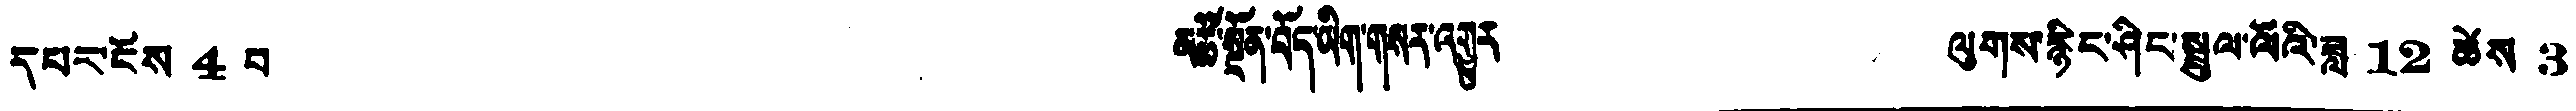དཔར་ངོས 4 པ མཆོ་སྔོན་བོད་ཡིག་གསར་འགྱུར ལུགས་རྙིང་ཤིང་སྦྲུལ་ལོའི་ཟླ 12 ཚེས 3
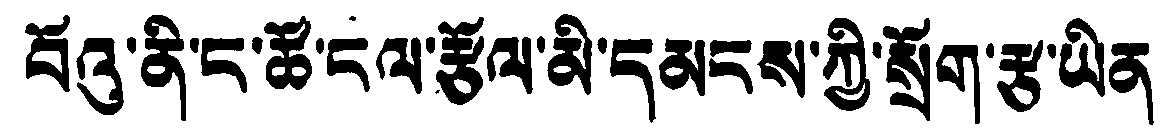བོའུ་ནི་ང་ཚོ་ངལ་རྩོལ་མི་དམངས་ཀྱི་སྲོག་རྩ་ཡིན
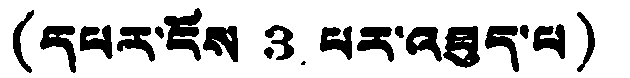(དཔར་ངོས 3 པར་འཐུད་ལ)
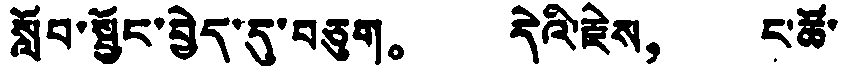སློབ་སྦྱོང་བྱེད་དུ་བཅུག。 དེའི་རྗེས， ང་ཚོ་
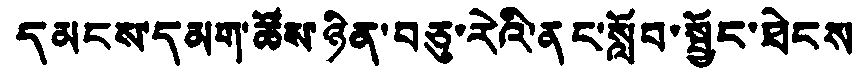དམངས་དམག་ཚོས་ཉིན་བཅུ་རེའི་ནང་སློབ་སྦྱོང་ཐེངས
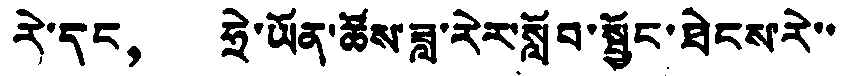རེ་དང， ཧྲེ་ཡོན་ཚོས་ཟླ་རེར་སློབ་སྦྱོང་ཐེངས་རེ་་
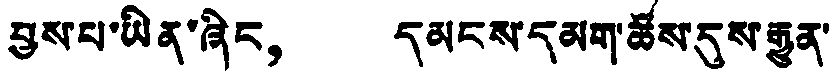བྱས་པ་ཡིན་ཞིང， དམངས་དམག་ཚོས་དུས་རྒྱུན་
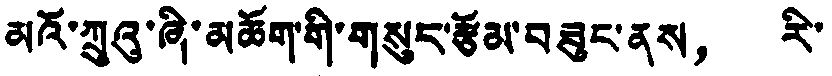མའོ་ཀྲུའུ་ཞི་མཆོག་གི་གསུང་རྩོམ་བཟུང་ནས， རི་
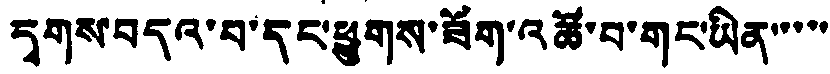དྭགས་བདའ་བ་དང་ཕྱུགས་ཟོག་འཚོ་བ་གང་ཡིན་་་་་
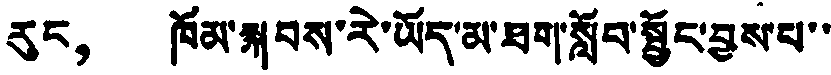རུང， ཁོམ་སྐབས་རེ་ཡོད་མ་ཐག་སློབ་སྦྱོང་བྱས་པ་་
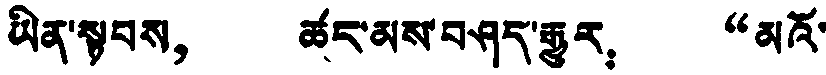ཡིན་སྟབས， ཚང་མས་བཤད་རྒྱུར： “མའོ་
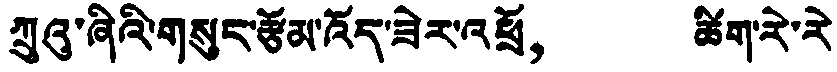ཀྲུའུ་ཞིའི་གསུང་རྩོམ་འོད་ཟེར་འཕྲོ， ཚིག་རེ་རེ་
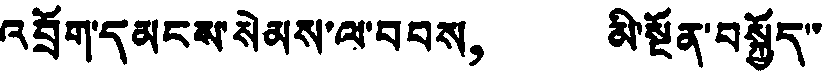འབྲོག་དམངས་སེམས་ལ་བབས， མི་སྔོན་བསྐྱོད་་
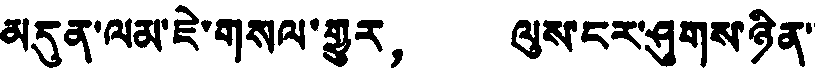མདུན་ལམ་ཇེ་གསལ་གྱུར， ལུས་ངར་ཤུགས་ཉིན་
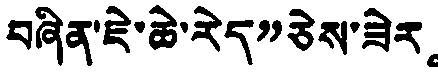བཞིན་ཇེ་ཆེ་རེད”ཅེས་ཟེར。
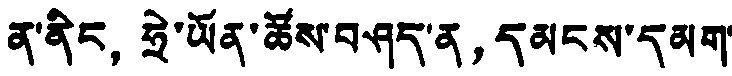ན་ནིང，ཧྲེ་ཡོན་ཚོས་བཤད་ན，དམངས་དམག་
